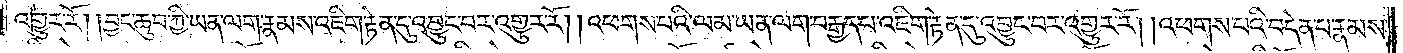འགྱུར་རོ། །བྱང་ཆུབ་ཀྱི་ཡན་ལག་རྣམས་འཇིག་རྟེན་དུ་འབྱུང་བར་འགྱུར་རོ། །འཕགས་པའི་ལམ་ཡན་ལག་བརྒྱད་པ་འཇིག་རྟེན་དུ་འབྱུང་བར་འགྱུར་རོ། །འཕགས་པའི་བདེན་པ་རྣམས་
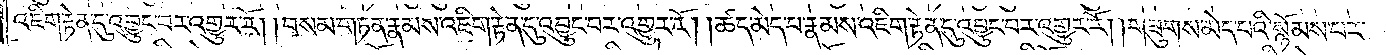འཇིག་རྟེན་དུ་འབྱུང་བར་འགྱུར་རོ། །བསམ་གཏན་རྣམས་འཇིག་རྟེན་དུ་འབྱུང་བར་འགྱུར་རོ། །ཚད་མེད་པ་རྣམས་འཇིག་རྟེན་དུ་འབྱུང་བར་འགྱུར་རོ། །གཟུགས་མེད་པའི་སྙོམས་པར་
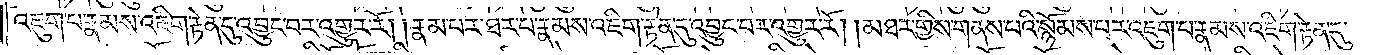འཇུག་པ་རྣམས་འཇིག་རྟེན་དུ་འབྱུང་བར་འགྱུར་རོ། །རྣམ་པར་ཐར་པ་རྣམས་འཇིག་རྟེན་དུ་འབྱུང་བར་འགྱུར་རོ། །མཐར་གྱིས་གནས་པའི་སྙོམས་པར་འཇུག་པ་རྣམས་འཇིག་རྟེན་དུ་
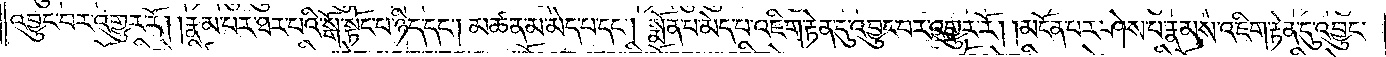འབྱུང་བར་འགྱུར་རོ། །རྣམ་པར་ཐར་པའི་སྒོ་སྟོང་པ་ཉིད་དང༌། མཚན་མ་མེད་པ་དང༌། སྨོན་པ་མེད་པ་འཇིག་རྟེན་དུ་འབྱུང་བར་འགྱུར་རོ། །མངོན་པར་ཤེས་པ་རྣམས་འཇིག་རྟེན་དུ་འབྱུང་
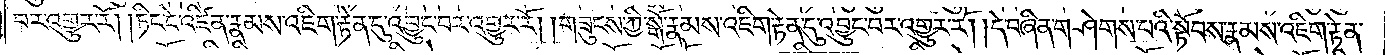བར་འགྱུར་རོ། །ཏིང་ངེ་འཛིན་རྣམས་འཇིག་རྟེན་དུ་འབྱུང་བར་འགྱུར་རོ། །གཟུངས་ཀྱི་སྒོ་རྣམས་འཇིག་རྟེན་དུ་འབྱུང་བར་འགྱུར་རོ། །དེ་བཞིན་གཤེགས་པའི་སྟོབས་རྣམས་འཇིག་རྟེན་
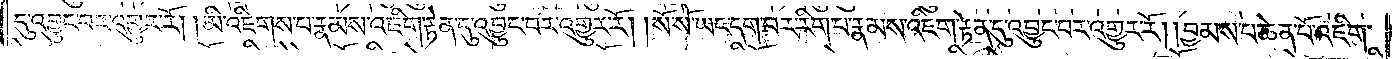དུ་འབྱུང་བར་འགྱུར་རོ། །མི་འཇིགས་པ་རྣམས་འཇིག་རྟེན་དུ་འབྱུང་བར་འགྱུར་རོ། །སོ་སོ་ཡང་དག་པར་རིག་པ་རྣམས་འཇིག་རྟེན་དུ་འབྱུང་བར་འགྱུར་རོ། །བྱམས་པ་ཆེན་པོ་འཇིག་
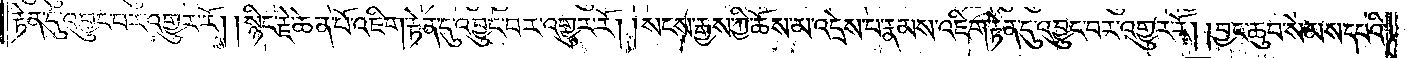རྟེན་དུ་འབྱུང་བར་འགྱུར་རོ། །སྙིང་རྗེ་ཆེན་པོ་འཇིག་རྟེན་དུ་འབྱུང་བར་འགྱུར་རོ། །སངས་རྒྱས་ཀྱི་ཆོས་མ་འདྲེས་པ་རྣམས་འཇིག་རྟེན་དུ་འབྱུང་བར་འགྱུར་རོ། །བྱང་ཆུབ་སེམས་དཔའི་
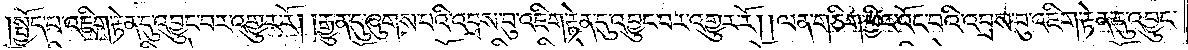སྤྱོད་པ་འཇིག་རྟེན་དུ་འབྱུང་བར་འགྱུར་རོ། །རྒྱུན་དུ་ཞུགས་པའི་འབྲས་བུ་འཇིག་རྟེན་དུ་འབྱུང་བར་འགྱུར་རོ། །ལན་གཅིག་ཕྱིར་འོང་བའི་འབྲས་བུ་འཇིག་རྟེན་དུ་འབྱུང་
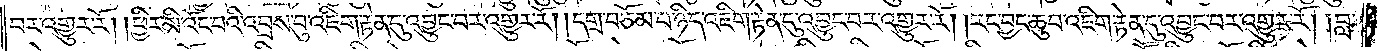བར་འགྱུར་རོ། །ཕྱིར་མི་འོང་བའི་འབྲས་བུ་འཇིག་རྟེན་དུ་འབྱུང་བར་འགྱུར་རོ། །དགྲ་བཅོམ་པ་ཉིད་འཇིག་རྟེན་དུ་འབྱུང་བར་འགྱུར་རོ། །རང་བྱང་ཆུབ་འཇིག་རྟེན་དུ་འབྱུང་བར་འགྱུར་རོ། །བླ་
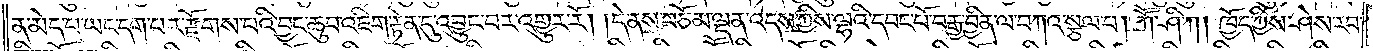ན་མེད་པ་ཡང་དག་པར་རྫོགས་པའི་བྱང་ཆུབ་འཇིག་རྟེན་དུ་འབྱུང་བར་འགྱུར་རོ། །དེ་ནས་བཅོམ་ལྡན་འདས་ཀྱིས་ལྷའི་དབང་པོ་བརྒྱ་བྱིན་ལ་བཀའ་སྩལ་པ། ཀཽ་ཤི་ཀ། ཁྱོད་ཀྱིས་ཤེས་རབ་
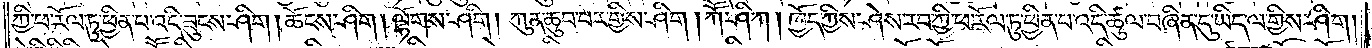ཀྱི་ཕ་རོལ་ཏུ་ཕྱིན་པ་འདི་ཟུངས་ཤིག །ཆོངས་ཤིག །ལྷོགས་ཤིག །ཀུན་ཆུབ་པར་གྱིས་ཤིག །ཀཽ་ཤི་ཀ། ཁྱོད་ཀྱིས་ཤེས་རབ་ཀྱི་ཕ་རོལ་ཏུ་ཕྱིན་པ་འདི་ཚུལ་བཞིན་དུ་ཡིད་ལ་གྱིས་ཤིག །
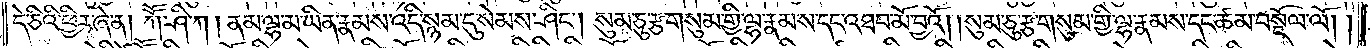དེ་ཅིའི་ཕྱིར་ཞེ་ན། ཀཽ་ཤི་ཀ། ནམ་ལྷ་མ་ཡིན་རྣམས་འདི་སྙམ་དུ་སེམས་ཤིང༌། སུམ་ཅུ་རྩ་གསུམ་གྱི་ལྷ་རྣམས་དང་འཐབ་མོ་བྱའོ། །སུམ་ཅུ་རྩ་གསུམ་གྱི་ལྷ་རྣམས་དང་ཚམ་བསྔལ་ལོ༎
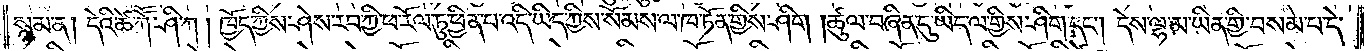སྙམ་ན། དེའི་ཚེ་ཀཽ་ཤི་ཀ། ཁྱོད་ཀྱིས་ཤེས་རབ་ཀྱི་ཕ་རོལ་ཏུ་ཕྱིན་པ་འདི་ཡིད་ཀྱིས་སེམས་ལ་ཁ་ཏོན་གྱིས་ཤིག། ཚུལ་བཞིན་དུ་ཡིད་ལ་གྱིས་ཤིག་དང༌། དེས་ལྷ་མ་ཡིན་གྱི་བསམ་པ་དེ་
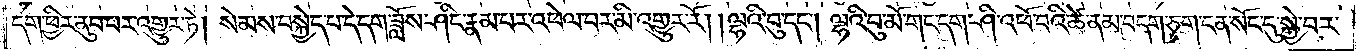དག་ཕྱིར་ནུབ་པར་འགྱུར་ཏེ། སེམས་བསྐྱེད་པ་དེ་དག་ཟློས་ཤིང་རྣམ་པར་འཕེལ་བར་མི་འགྱུར་རོ། །ལྷའི་བུ་དང༌། ལྷའི་བུ་མོ་གང་དག་ཤི་འཕོ་བའི་ཚེ་ནམ་བདག་ཅག་ངན་སོང་དུ་སྐྱེ་བར་
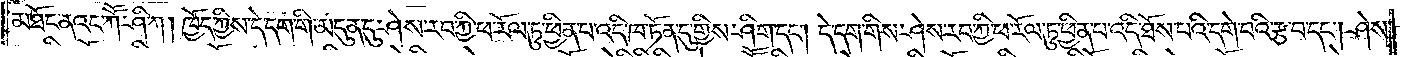མཐོང་ནའང་ཀཽ་ཤི་ཀ། ཁྱོད་ཀྱིས་དེ་དག་གི་མདུན་དུ་ཤེས་རབ་ཀྱི་ཕ་རོལ་ཏུ་ཕྱིན་པ་འདི་ཁ་ཏོན་དུ་གྱིས་ཤིག་དང༌། དེ་དག་གིས་ཤེས་རབ་ཀྱི་ཕ་རོལ་ཏུ་ཕྱིན་པ་འདི་ཐོས་པའི་དགེ་བའི་རྩ་བ་དང༌། ཤེས་
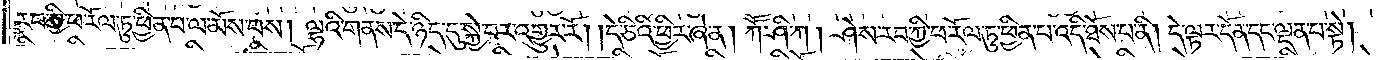རབ་ཀྱི་ཕ་རོལ་ཏུ་ཕྱིན་པ་ལ་མོས་པས། ལྷའི་གནས་དེ་ཉིད་དུ་སྐྱེ་བར་འགྱུར་རོ། །དེ་ཅིའི་ཕྱིར་ཞེ་ན། ཀཽ་ཤི་ཀ། ཤེས་རབ་ཀྱི་ཕ་རོལ་ཏུ་ཕྱིན་པ་འདི་ཐོས་པ་ནི། དེ་ལྟར་དོན་དང་ལྡན་པ་སྟེ།
